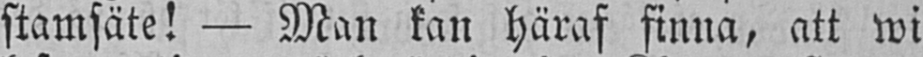stamsäte! — Man kan häraf finna, att wi
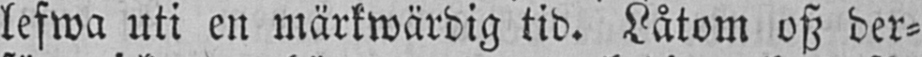lefwa uti en märkwärdig tid. Låtom osz der-
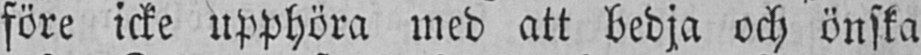före icke upphöra med att bedja och önska
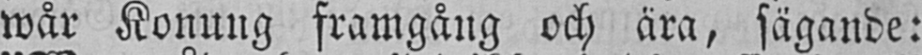wår Konung framgång och ära, sägande:
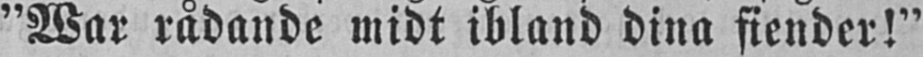"War rådande midt ibland dina fiender!"
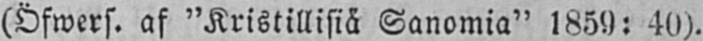(Öfwers. af "Kristillisiä Sanomia" 1859: 40).
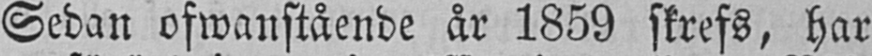Sedan ofwanstående år 1859 skrefs, har
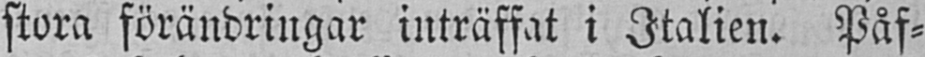stora förändringar inträffat i Italien. Påf-
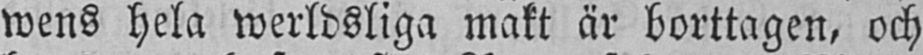wens hela werldsliga makt är borttagen, och
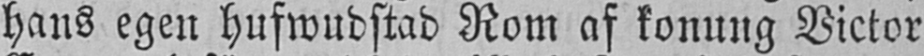hans egen hufwudstad Rom af konung Victor
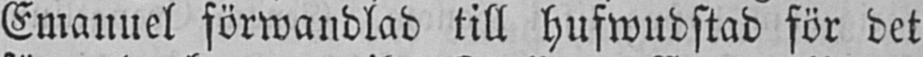Emanuel förwandlad till hufwudstad för det
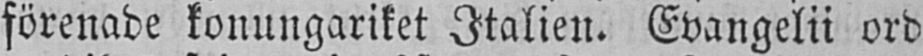förenade konungariket Italien. Evangelii ord
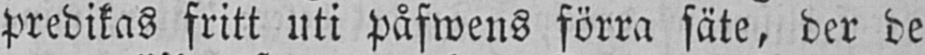predikas fritt uti påfwens förra säte, der de
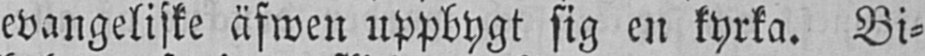evangeliske äfwen uppbygt sig en kyrka. Bi-
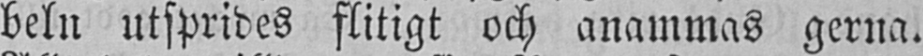beln utsprides flitigt och anammas gerna.
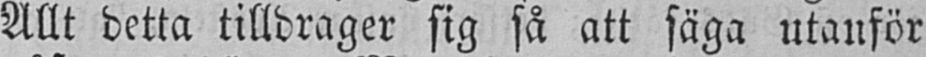Allt detta tilldrager sig så att säga utanför
